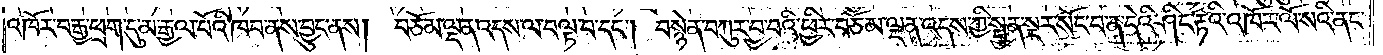འཁོར་བརྒྱ་ཕྲག་དུ་མ་རྒྱལ་པོའི་ཁབ་ནས་བྱུང་ནས། བཅོམ་ལྡན་འདས་ལ་བལྟ་བ་དང༌། བསྙེན་བཀུར་བྱ་བའི་ཕྱིར་བཅོམ་ལྡན་འདས་ཀྱི་སྤྱན་སྔར་སོང་བ་ན་དེའི་ཤིང་རྟའི་འཁོར་ལོ་སའི་ནང་
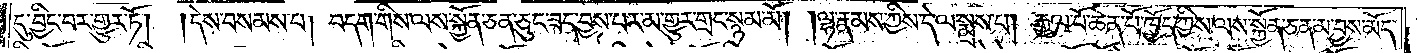དུ་བྱིང་བར་གྱུར་ཏོ།  །དེས་བསམས་པ། བདག་གིས་ལས་སྐྱོན་ཅན་ཅུང་ཟད་བྱས་པར་མ་གྱུར་གྲང་སྙམ་མོ། །ལྷ་རྣམས་ཀྱིས་དེ་ལ་སྨྲས་པ། རྒྱལ་པོ་ཆེན་པོ་ཁྱོད་ཀྱིས་ལས་སྐྱོན་ཅན་མ་བྱས་མོད་
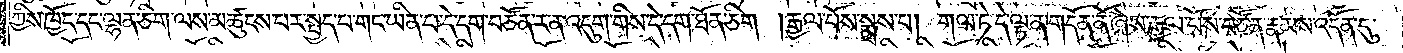ཀྱིས་ཁྱོད་དང་ལྷན་ཅིག་ལས་མཚུངས་པར་སྤྱད་པ་གང་ཡིན་པ་དེ་དག་བཙོན་ར་ན་འདུག་གིས་དེ་དག་ཐོན་ཅིག །རྒྱལ་པོས་སྨྲས་པ། གལ་ཏེ་དེ་ལྟ་ན་གདོན་ནོ་ཞེས་རྒྱལ་པོས་བཙོན་རྣམས་འདོན་དུ་
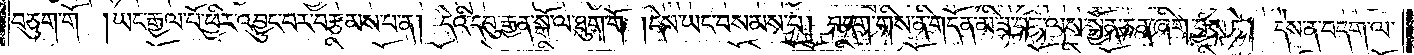བཅུག་གོ །ཡང་རྒྱལ་པོ་ཕྱིར་འབྱུང་བར་བརྩམས་པ་ན། དེའི་དབུ་རྒྱན་སྒོ་ལ་ཐུག་གོ །དེས་ཡང་བསམས་པ། བདག་གིས་ནི་གདོན་མི་ཟ་བར་ལས་སྐྱོན་ཅན་ཞིག་བྱས་ཏེ། དེས་ན་བདག་ལ་
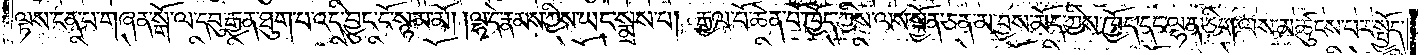ལྟས་ངན་པ་གཞན་སྒོ་ལ་དབུ་རྒྱན་ཐུག་པ་འདི་བྱུང་ངོ་སྙམ་མོ། །ལྷ་དེ་རྣམས་ཀྱིས་ཡང་སྨྲས་པ། རྒྱལ་པོ་ཆེན་པོ་ཁྱོད་ཀྱིས་ལས་སྐྱོན་ཅན་མ་བྱས་མོད་ཀྱིས་ཁྱོད་དང་ལྷན་ཅིག་ལས་མཚུངས་པར་སྤྱོད་
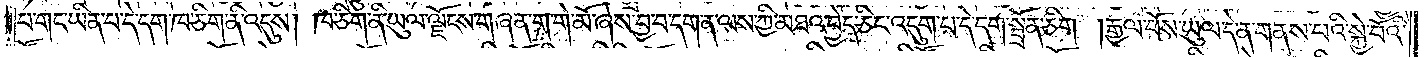པ་གང་ཡིན་པ་དེ་དག་ཁ་ཅིག་ནི་འདུས། ཁ་ཅིག་ནི་ཡུལ་ལྗོངས་གཞན་ག་གེ་མོ་ཞེས་བྱ་བ་དག་ན་ལས་ཀྱི་མཐའ་བྱེད་ཅིང་འདུག་པ་དེ་དག་སྦྲོན་ཅིག །རྒྱལ་པོས་ཡུལ་དེ་ན་གནས་པའི་སྐྱེ་བོའི་
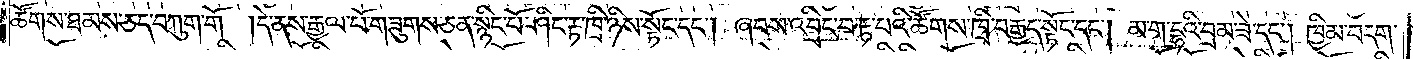ཚོགས་ཐམས་ཅད་བཀུག་གོ །དེ་ནས་རྒྱལ་པོ་གཟུགས་ཅན་སྙིང་པོ་ཤིང་རྟ་ཁྲི་ཉིས་སྟོང་དང༌། ཞབས་འབྲིང་བ་རྟ་པའི་ཚོགས་ཁྲི་བརྒྱད་སྟོང་དང༌། མ་ག་དྷའི་བྲམ་ཟེ་དང༌། ཁྱིམ་བདག་
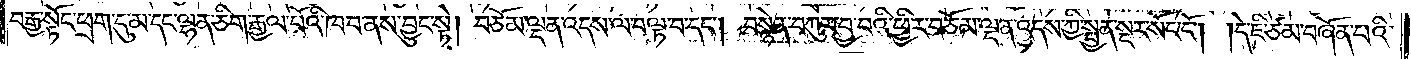བརྒྱ་སྟོང་ཕྲག་དུ་མ་དང་ལྷན་ཅིག་རྒྱལ་པོའི་ཁབ་ནས་བྱུང་སྟེ། བཅོམ་ལྡན་འདས་ལ་བལྟ་བ་དང༌། བསྙེན་བཀུར་བྱ་བའི་ཕྱིར་བཅོམ་ལྡན་འདས་ཀྱི་སྤྱན་སྔར་སོང་ངོ༌། །དེ་ཇི་ཙམ་བཞོན་པའི་
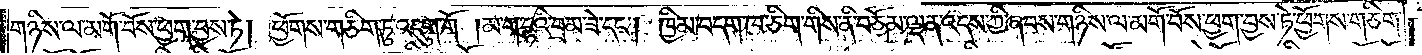གཉིས་ལ་མགོ་བོས་ཕྱག་བྱས་ཏེ། ཕྱོགས་གཅིག་ཏུ་འདུག་གོ །མ་ག་དྷའི་བྲམ་ཟེ་དང༌། ཁྱིམ་བདག་ཁ་ཅིག་གིས་ནི་བཅོམ་ལྡན་འདས་ཀྱི་ཞབས་གཉིས་ལ་མགོ་བོས་ཕྱག་བྱས་ཏེ་ཕྱོགས་གཅིག་
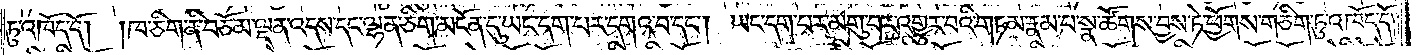ཏུ་འཁོད་དོ། །ཁ་ཅིག་ནི་བཅོམ་ལྡན་འདས་དང་ལྷན་ཅིག་མངོན་དུ་ཡང་དག་པར་དགའ་བ་དང༌། ཡང་དག་པར་མགུ་བར་འགྱུར་བའི་གཏམ་རྣམ་པ་སྣ་ཚོགས་བྱས་ཏེ་ཕྱོགས་གཅིག་ཏུ་འཁོད་དོ།
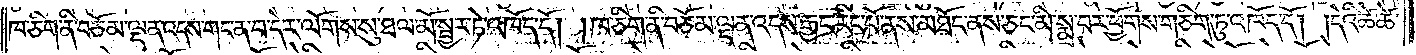ཁ་ཅིག་ནི་བཅོམ་ལྡན་འདས་གང་ན་བ་དེར་ལོགས་སུ་ཐལ་མོ་སྦྱར་ཏེ་འཁོད་དོ། །ཁ་ཅིག་ནི་བཅོམ་ལྡན་འདས་རྒྱང་རིང་པོ་ནས་མཐོང་ནས་ཅང་མི་སྨྲ་བར་ཕྱོགས་གཅིག་ཏུ་འཁོད་དོ། །དེའི་ཚེ་ཚེ་
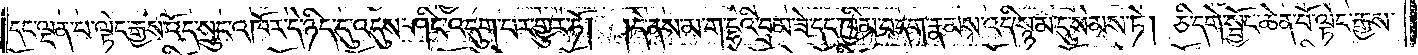དང་ལྡན་པ་ལྟེང་རྒྱས་འོད་སྲུང་འཁོར་དེ་ཉིད་དུ་འདུས་ཤིང་འདུག་པར་གྱུར་ཏོ། །དེ་ནས་མ་ག་དྷའི་བྲམ་ཟེ་དང་ཁྱིམ་བདག་རྣམས་འདི་སྙམ་དུ་སེམས་ཏེ། ཅི་དགེ་སྦྱོང་ཆེན་པོ་ལྟེང་རྒྱས་
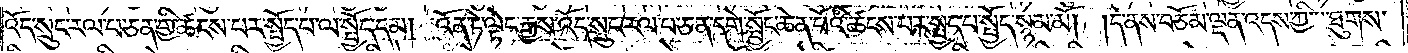འོད་སྲུང་རལ་པ་ཅན་གྱི་ཚངས་པར་སྤྱོད་པ་ལ་སྤྱོད་དམ། འོན་ཏེ་ལྟེང་རྒྱས་འོད་སྲུང་རལ་པ་ཅན་དགེ་སྦྱོང་ཆེན་པོའི་ཚངས་པར་སྤྱད་པ་སྤྱོད་སྙམ་མོ། །དེ་ནས་བཅོམ་ལྡན་འདས་ཀྱི་ཐུགས་
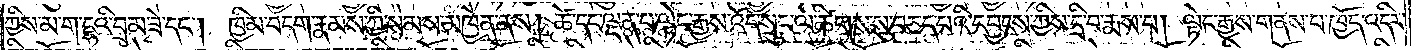ཀྱིས་མ་ག་དྷའི་བྲམ་ཟེ་དང༌། ཁྱིམ་བདག་རྣམས་ཀྱི་སེམས་མཁྱེན་ནས། །ཚེ་དང་ལྡན་པ་ལྟེང་རྒྱས་འོད་སྲུང་ལ་ཚིགས་སུ་བཅད་པའི་དབྱངས་ཀྱིས་དྲི་བ་རྨས་པ། ལྟེང་རྒྱས་གནས་པ་ཁྱོད་འདིར་
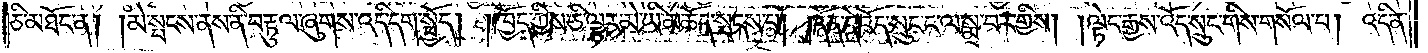ཅི་མཐོང་ན། །མེ་སྤངས་ནས་ནི་བརྟུལ་ཞུགས་འདི་དག་སྤྱོད། །ཁྱོད་ཀྱིས་ཅི་ལྟར་མེ་ཡི་མཆོད་སྤངས་པ། །དོན་དེ་འོད་སྲུང་ང་ལ་སྨྲ་བར་གྱིས། །ལྟེང་རྒྱས་འོད་སྲུང་གིས་གསོལ་པ། འདི་ནི་
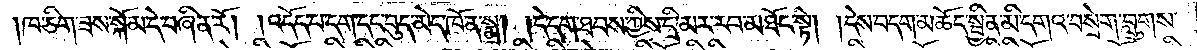ཁ་ཅིག་ཟས་སྐོམ་དེ་བཞིན་རོ། །འདོད་པ་དག་དང་བུད་མེད་ཁོ་ན་སྨྲ། །དེ་དག་ཐབས་ཀྱིས་དྲི་མར་རབ་མཐོང་སྟེ། །དེས་བདག་མཆོད་སྦྱིན་མི་དགའ་བསྲེག་བླུགས་
